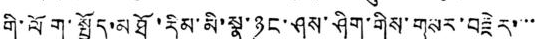གི་ལོག་སྤྱོད་མཐོ་རིམ་མི་སྣ་ཉུང་ཤས་ཤིག་གིས་གསར་བརྗེར་་་་
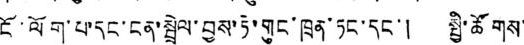ངོ་ལོག་པ་དང་ངན་སྦྲེལ་བྱས་ཏེ་གུང་ཁྲན་ཏང་དང་། སྤྱི་ཚོགས་
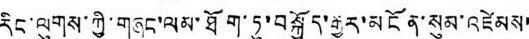རིང་ལུགས་ཀྱི་གཞུང་ལམ་ཐོག་ཏུ་བསྐྱོད་རྒྱུར་མངོན་སུམ་འཛེམས་
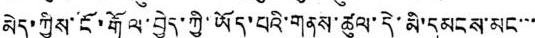མེད་ཀྱིས་ངོ་རྒོལ་བྱེད་ཀྱི་ཡོད་པའི་གནས་ཚུལ་དེ་མི་དམངས་མང་་་
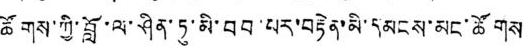ཚོགས་ཀྱི་བློ་ལ་ཤིན་ཏུ་མི་བབ་པར་བརྟེན་མི་དམངས་མང་ཚོགས་
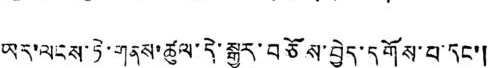ཡར་ལངས་ཏེ་གནས་ཚུལ་དེ་སྒྱུར་བཅོས་བྱེད་དགོས་པ་དང་།
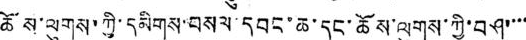ཆོས་ལུགས་ཀྱི་དམིགས་བསལ་དབང་ཆ་དང་ཆོས་ལུགས་ཀྱི་བཤུ་་་་
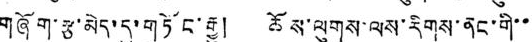གཞོག་རྩ་མེད་དུ་གཏོང་རྒྱུ། ཆོས་ལུགས་ལས་རིགས་ནང་གི་་
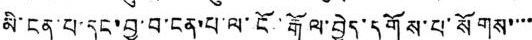མི་ངན་པ་དང་བྱ་བ་ངན་པ་ལ་ངོ་རྒོལ་བྱེད་དགོས་པ་སོགས་་་་
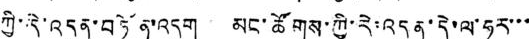ཀྱི་རེ་འདུན་བཏོན་འདུག མང་ཚོགས་ཀྱི་རེ་འདུན་དེ་ལ་ཧུར་་་
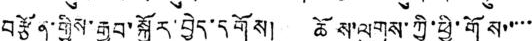བརྩོན་གྱིས་རྒྱབ་སྐྱོར་བྱེད་དགོས། ཆོས་ལུགས་ཀྱི་ཕྱི་གོས་་་་་
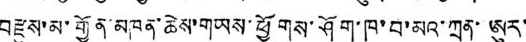བརྫུས་མ་གྱོན་མཁན་ཆེས་གཡས་ཕྱགོས་ཤོག་ཁ་བ་མའ་ཀྲན་ཨུར་
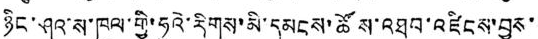ཉིང་ཤའ་ས་ཁུལ་གྱི་ཧུའེ་རིགས་མི་དམངས་ཚོས་འཐབ་འཛིངས་བྱས་
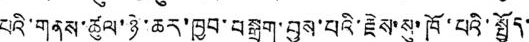པའི་གནས་ཚུལ་ཉེ་ཆར་ཁྱབ་བསྒྲག་བྱས་པའི་རྗེས་སུ་ཁོ་པའི་སྤྱོད་
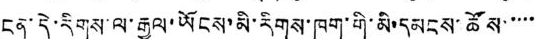ངན་དེ་རིགས་ལ་རྒྱལ་ཡོངས་མི་རིགས་ཁག་གི་མི་དམངས་ཚོས་་་་་
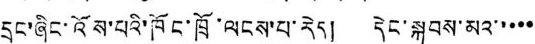དྲང་ཞིང་འོས་པའི་ཁོང་ཁྲོ་ལངས་པ་རེད། དེང་སྐབས་མའ་་་་་
